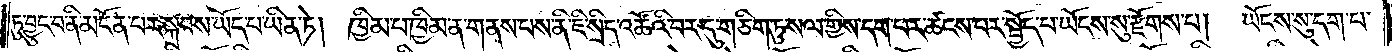ཏུ་བྱུང་བ་ནི་མངོན་པར་སྐབས་ཡོད་པ་ཡིན་ཏེ། ཁྱིམ་པ་ཁྱིམ་ན་གནས་པས་ནི་ཇི་སྲིད་འཚོའི་བར་དུ་གཅིག་ཏུ་སལ་གྱིས་དག་པར་ཚངས་པར་སྤྱོད་པ་ཡོངས་སུ་རྫོགས་པ།  ཡོངས་སུ་དག་པ་
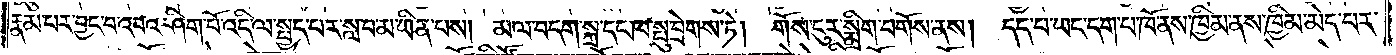རྣམ་པར་བྱང་བ་འབའ་ཤིག་པོ་འདི་ལ་སྤྱད་པར་སླ་བ་མ་ཡིན་པས། མ་ལ་བདག་སྐྲ་དང་ཁ་སྤུ་བྲེགས་ཏེ། གོས་ངུར་སྨྲིག་བགོས་ནས། དད་པ་ཡང་དག་པ་ཁོ་ནས་ཁྱིམ་ནས་ཁྱིམ་མེད་པར་
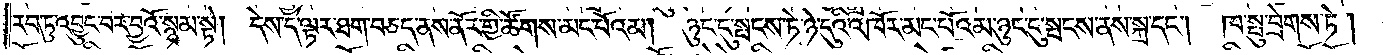རབ་ཏུ་འབྱུང་བར་བྱའོ་སྙམ་སྟེ། དེས་དེ་ལྟར་ཐག་བཅད་ནས་ནོར་གྱི་ཚོགས་མང་པོའམ། ཉུང་དུ་སྤངས་ཏེ་ཉེ་དུའི་འཁོར་མང་པོའམ་ཉུང་དུ་སྤངས་ནས་སྐྲ་དང༌། ཁ་སྤུ་བྲེགས་ཏེ།
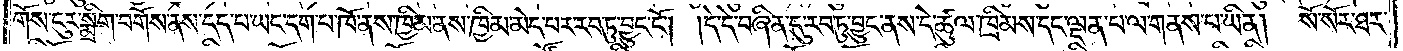གོས་ངུར་སྨྲིག་བགོས་ནས་དད་པ་ཡང་དག་པ་ཁོ་ནས་ཁྱིམ་ནས་ཁྱིམ་མེད་པར་རབ་ཏུ་བྱུང་ངོ༌། །དེ་དེ་བཞིན་དུ་རབ་ཏུ་བྱུང་ནས་དེ་ཚུལ་ཁྲིམས་དང་ལྡན་པ་ལ་གནས་པ་ཡིན།   སོ་སོར་ཐར་
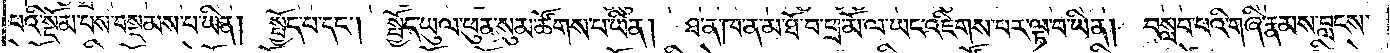པའི་སྡོམ་པས་བསྡམས་པ་ཡིན། སྤྱོད་པ་དང༌། སྤྱོད་ཡུལ་ཕུན་སུམ་ཚོགས་པ་ཡིན། ཐ་ན་ཁ་ན་མ་ཐོ་བ་ཕྲ་མོ་ལ་ཡང་འཇིགས་པར་ལྟ་བ་ཡིན། བསླབ་པའི་གཞི་རྣམས་བླངས་
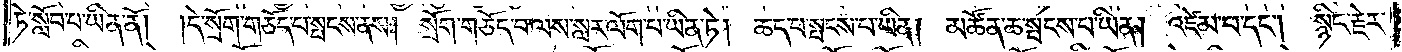ཏེ་སློབ་པ་ཡིན་ནོ། །དེ་སྲོག་གཅོད་པ་སྤངས་ནས། སྲོག་གཅོད་པ་ལས་སླར་ལོག་པ་ཡིན་ཏེ། ཆད་པ་སྤངས་པ་ཡིན། མཚོན་ཆ་སྤངས་པ་ཡིན། འཛེམ་པ་དང༌། སྙིང་རྗེར་
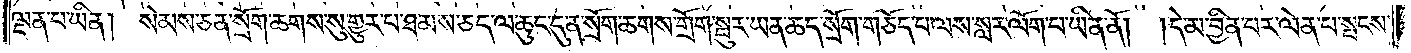ལྡན་པ་ཡིན། སེམས་ཅན་སྲོག་ཆགས་སུ་གྱུར་པ་ཐམས་ཅད་ལ་ཆུང་དུ་ན་སྲོག་ཆགས་གྲོག་སྤུར་ཡན་ཆད་སྲོག་གཅོད་པ་ལས་སླར་ལོག་པ་ཡིན་ནོ།  །དེ་མ་བྱིན་པར་ལེན་པ་སྤངས་
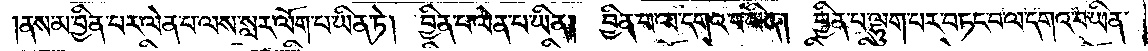།ནས་མ་བྱིན་པར་ལེན་པ་ལས་སླར་ལོག་པ་ཡིན་ཏེ། བྱིན་པ་ལེན་པ་ཡིན།<gap>བྱིན་པ་ལ་དགའ་བ་ཡིན། བྱིན་པ་ལྷུག་པར་བཏང་བ་ལ་དགའ་བ་ཡིན་
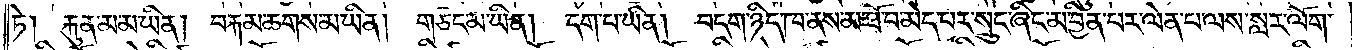ཏེ། རྐུན་མ་མ་ཡིན། བརྐམ་ཆགས་མ་ཡིན།  གཙང་མ་ཡིན། དག་པ་ཡིན། བདག་ཉིད་ཁ་ནས་མ་ཐོབ་པ་མེད་པར་སྲུང་ཞིང་མ་བྱིན་པར་ལེན་པ་ལས་སླར་ལོག་
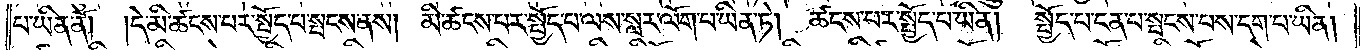པ་ཡིན་ནོ། །དེ་མི་ཚངས་པར་སྤྱོད་པ་སྤངས་ནས། མི་ཚངས་པར་སྤྱོད་པ་ལས་སླར་ལོག་པ་ཡིན་ཏེ། ཚངས་པར་སྤྱོད་པ་ཡིན།   སྤྱོད་པ་ངན་པ་སྤངས་པས་དག་པ་ཡིན།
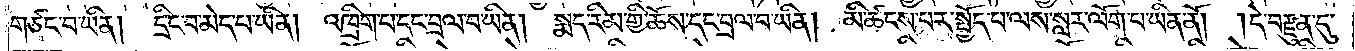གཙང་བ་ཡིན།   དྲི་ང་བ་མེད་པ་ཡིན། འཁྲིག་པ་དང་བྲལ་བ་ཡིན། སྨད་རིམ་གྱི་ཆོས་དང་བྲལ་བ་ཡིན། མི་ཚངས་པར་སྤྱོད་པ་ལས་སླར་ལོག་པ་ཡིན་ནོ། །དེ་བརྫུན་དུ་
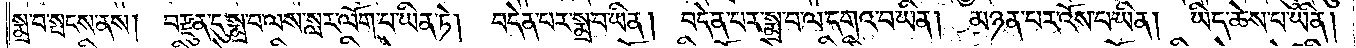སྨྲ་བ་སྤངས་ནས། བརྫུན་དུ་སྨྲ་བ་ལས་སླར་ལོག་པ་ཡིན་ཏེ། བདེན་པར་སྨྲ་བ་ཡིན། བདེན་པར་སྨྲ་བ་ལ་དགའ་བ་ཡིན། མཉན་པར་འོས་པ་ཡིན། ཡིད་ཆེས་པ་ཡིན།
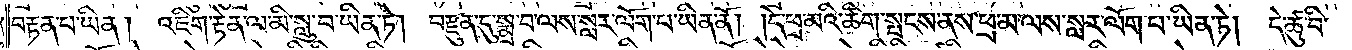བརྟན་པ་ཡིན།   འཇིག་རྟེན་ལ་མི་སླུ་བ་ཡིན་ཏེ། བརྫུན་དུ་སྨྲ་བ་ལས་སླར་ལོག་པ་ཡིན་ནོ། །དེ་ཕྲ་མའི་ཚིག་སྤངས་ནས་ཕྲ་མ་ལས་སླར་ལོག་པ་ཡིན་ཏེ། དེ་ཚུ་བི་
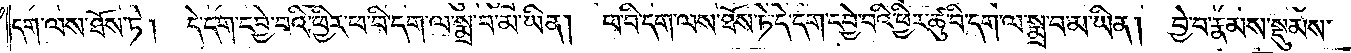དག་ལས་ཐོས་ཏེ། དེ་དག་དབྱེ་བའི་ཕྱིར་ཕ་བི་དག་ལ་སྨྲ་བ་མ་ཡིན།   ཕ་བི་དག་ལས་ཐོས་ཏེ་དེ་དག་དབྱེ་བའི་ཕྱིར་ཚུ་བི་དག་ལ་སྨྲ་བ་མ་ཡིན།   བྱེ་བ་རྣམས་སྡུམས་
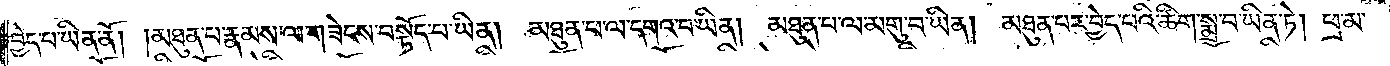བྱེད་པ་ཡིན་ནོ། མཐུན་པ་རྣམས་ལ་གཟེངས་བསྟོད་པ་ཡིན། མཐུན་པ་ལ་དགའ་བ་ཡིན། མཐུན་པ་ལ་མགུ་བ་ཡིན། མཐུན་པར་བྱེད་པའི་ཚིག་སྨྲ་བ་ཡིན་ཏེ། ཕྲ་མ་
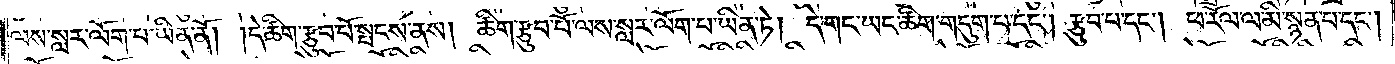ལས་སླར་ལོག་པ་ཡིན་ནོ། །དེ་ཚིག་རྩུབ་པོ་སྤངས་ནས། ཚིག་རྩུབ་པོ་ལས་སླར་ལོག་པ་ཡིན་ཏེ། དེ་གང་ཡང་ཚིག་གདུག་པ་དང༌། རྩུབ་པ་དང༌། ཕ་རོལ་ལ་མི་སྙན་པ་དང༌།
